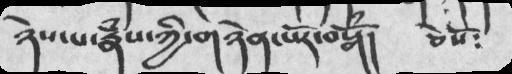ཉེས་པ་རྣཾས་ཀྱི་གཉེན་པོར་བསྒོཾ།   ཅེསོ༴
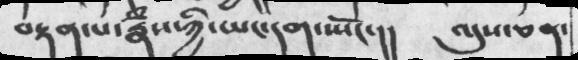བརྟན་པ་རྣཾས་ཀྱི་ཡང་དག་སྤོང་།།     འདུས་ཅན་
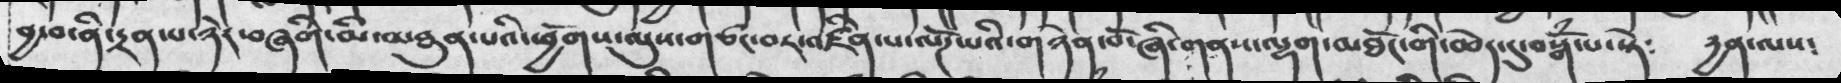བྱ་བ་ནི་དྲན་པ་ཉེར་བཞགི་མི་མཐུན་པའི་ཕྱོགས་ལུས་གཙང་བར་འཛིན་པ་ལོཌ་པའི་གཉེན་པོ་ཞི་གནས་ལྷག་མཐོང་གི་ཆེད་དུ་བསྒོཾ་པ་སྟེ༴   དྱན་ལས༴
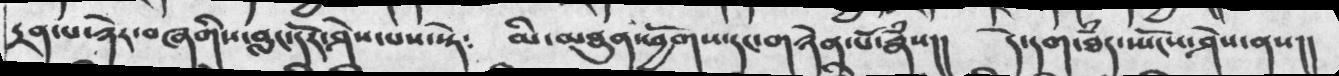དྲན་པ་ཉེར་བཞགིས་བླང་དོར་ཤེས་པས་སྟེ༴  མི་མཐཱུན་ཕྱོགས་དང་གཉེན་པོ་རྣཾས།།   དེ་དག་ཐཾད་སྤོངས་ཤེས་ནས།།
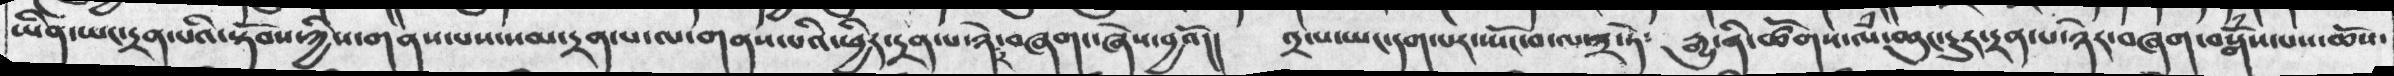ཡིན་ཡང་དྲན་པའི་སྟོབས་ཀྱིས་གནས་པས་སམ་དྲན་པ་ལ་གནས་པའི་ཕྱིར་དྲན་པ་ཉེར་བཞག་ཞེས་བྱའོ།།  ༢་པ་ཡང་དག་པར་སྤོང་བ་ལ་༣་ཏེ༴   རྒྱུ་ནི་ཚོགས་ལཾ་ཆུང་ངུར་དྲན་པ་ཉེར་བཞག་བསྒོཾས་པས་ཆོས་
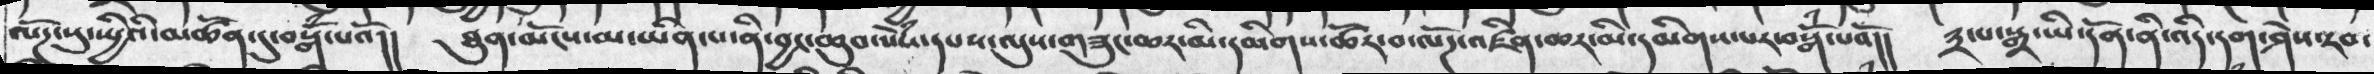ལོཌ་སུ་སྤྱིའི་མཚོན་དུ་བསྒོཾ་པའོ།།   ཐུན་མོངས་མ་ཡིན་པ་ནི་བྱང་ཆུབ་སེཾས་དཔས་ལུས་གཟུང་ཆར་མི་དམིགས་ཚོར་བ་ལོཌ་འཛིན་ཆར་མི་དམིགས་པར་བསྒོཾ་པའོ།།   ༣་པ་སྒྲ་ཡི་དོན་ནི་འདི་དག་ཤེས་རབ་
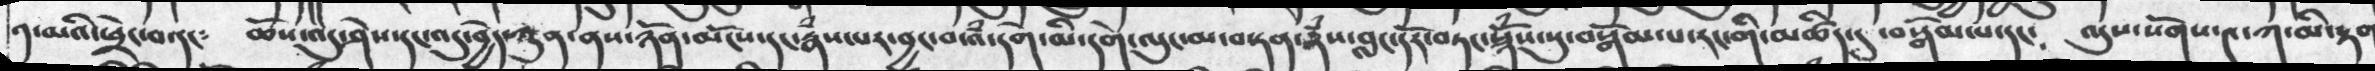༡་མའི་ཕྲེང་བ་དང༴   ཆོས་འདུ་ཤེས་དང་འདུ་བྱེད་ཀུན་ནས་ཉོན་མོངས་དང་རྣཾས་པར་བྱང་བ་འཾ་དགེ་མི་དགེ་ལུང་མ་བསྟན་རྣཾས་བླང་དོར་བཏང་སྙོཾས་སུ་བསྒོམ་པ་རང་གི་མཚིད་དུ་བསྒོམ་པ་དང༴  ལུས་སོགས་༤་ཀ་མི་རྟག
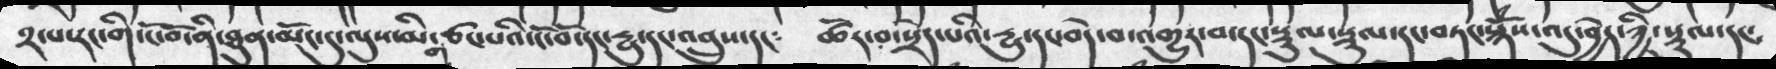༢་པ་རང་གི་ངོ་་བོ་ནི་ཐུན་མོང་དུ་ལུས་མི་གཙང་པའི་ངོ་བོ་དང་དྱུན་དང་འབྲུས་དང༴   ཚོར་བ་སྲེད་པའི་དྱུ་དང་བདེ་བ་འགྱུར་བ་དང་སྡུལ་སྡུལ་དང་བཏང་སྙོཾས་འདུ་བྱེད་ཀྱི་སྡུལ་དང༴
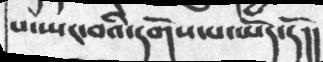པ་སྤང་བའི་དགོས་པ་ཡོད་དོ།།
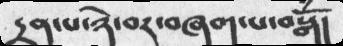དྲན་པ་ཉེ་བར་བཞག་པ་བསྒོཾ།
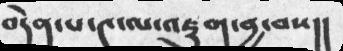བདེན་པ་༤་ལ་འཇུག་བྱ་བས།།
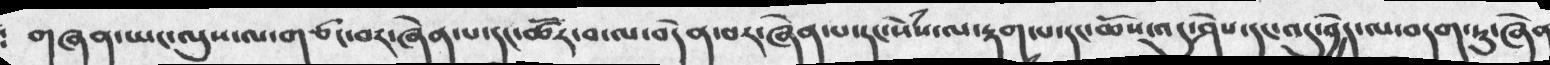གཞན་ཡང་ལུས་ལ་གཙང་བར་ཞེན་པ་དང་ཚོར་བ་ལ་བདེན་པར་ཞེན་པ་དང་སེཾས་ལ་རྟག་པ་དང་ཆོས་འདུ་ཤེས་དང་འདུ་བྱེད་ལ་བདག་ཏུ་ཞེན
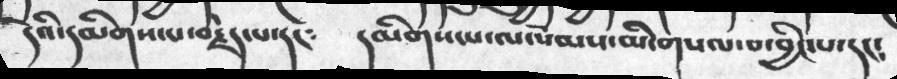དེའི་དམིགས་པ་རྗེད་པ་དང༴   དམིགས་པ་ལ་སེམས་མི་གསལ་བ་བྱིང་པ་དང༴
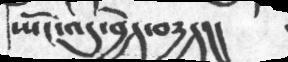སྤང་འདུ་ཤེས་བདྱད།།
